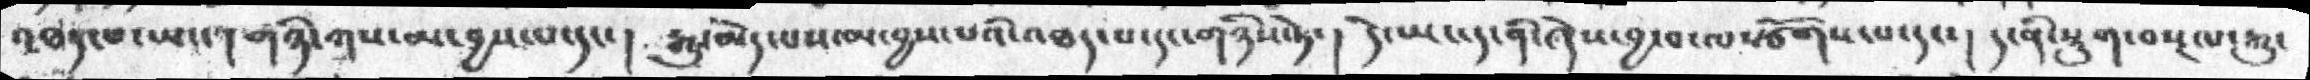འཐད་པ་ཡང་། གཉི་ཀས་མ་བྱས་པ་དང་། རྒྱུ་མེད་པས་མ་བྱས་པའི་འཏད་པ་དང་གཉིས་ཏེ་། དེ་ཡང་ད་ནི་ཞེས་བྱ་བ་ལསྩོགས་པ་དང་། ད་ནི་སྡུག་བསྔལ་རྒྱུ་
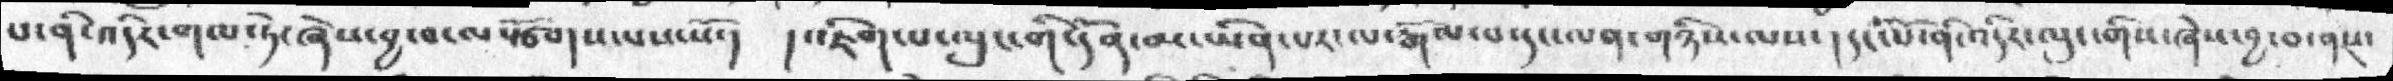པ་ནི་འདིར་གལ་ཏེ་ཞེས་བྱ་བ་ལསྩོགས་པས་སོ་།  །འཇིག་པ་ལུང་གི་དོན་མ་ཡིན་པར་ལ་རྒོལ་བ་དང་ལན་གཉིས་ལས་། དང་པོ་ནི་འདིར་ལུང་གིས་ཞེས་བྱ་བ་ནས་
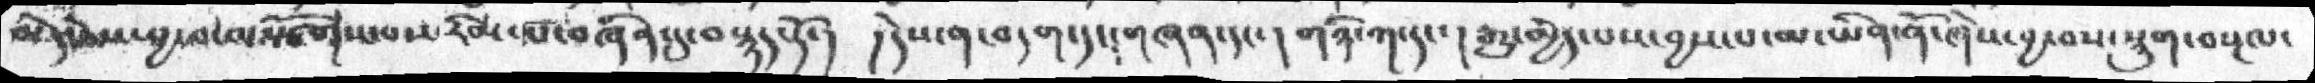མོད་ཅེས་བྱ་བ་ལསྩོགས་པ་རིམ་པ་བཞིན་དུ་བསྙད་དོ་།  ། དེས་ན་གདག་དང་གཞན་དང་།  གཉི་ཀ་དང་།   རྒྱུ་མྱེད་པས་བྱས་པ་མ་ཡིན་ནོ་ཞེས་བྱ་བས་སྡུག་བསྔལ་
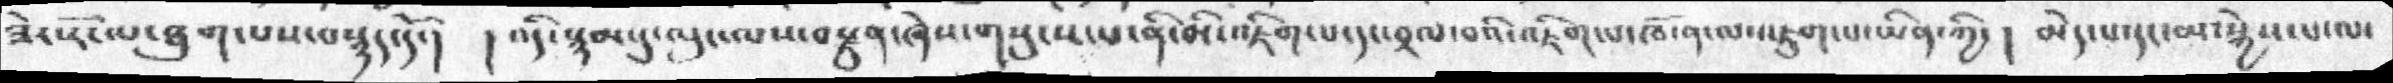ཟེར་རོ་ལ་ཐུག་པས་བསྙད་དོ་།  །འདི་སྙམ་དུ་ལུང་ལས་བརྫུས་ཞེས་གསུངས་པ་ནི་མི་འཇིག་པ་དང་བྲལ་བའི་འཇིག་པ་ཁོ་ན་ལ་འཇུག་པ་ཡིན་ཀྱི་། མེད་པ་དང་མ་སྐྱེས་པ་ལ་
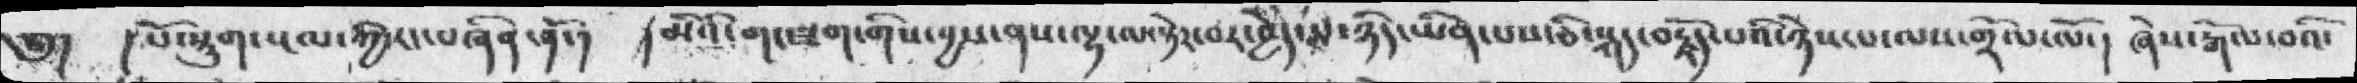༅།  །པོ་སྡུག་སྔལ་ཀྱི་རང་བཞིན་ནོ་།  །མིའི་གང་ཟག་གིས་བྱས་ནས་ལྷ་ལ་སྟེར་བར་བྱེད་པ་ཉིད་ཡིན་པས་ཅི་སྐད་བརྗོད་པའི་ཉེས་པ་ལས་གྲོལ་ལོ་། ཞེས་རྒོལ་བའི་
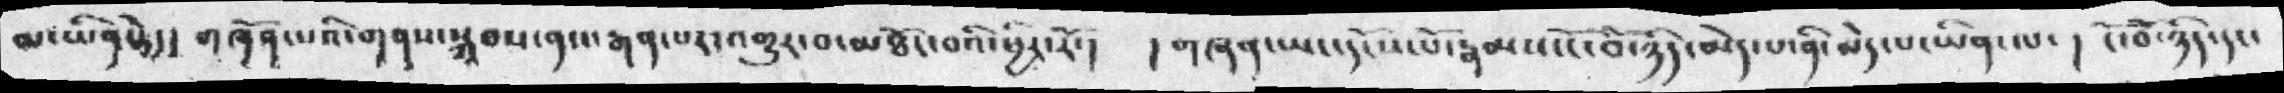མ་ཡིན་ཏེ་། གཞོན་པའི་གནས་སྐབས་ནས་རྒན་པར་འགྱུར་བ་མཐོང་བའི་ཕྱིར་རོ་།  །གཞན་ཡང་དངོས་པོ་རྣམས་ངོ་བོ་ཉིད་མེད་པ་ནི་མེད་པ་ཡིན་ལ་། ངོ་བོ་ཉིད་དང་
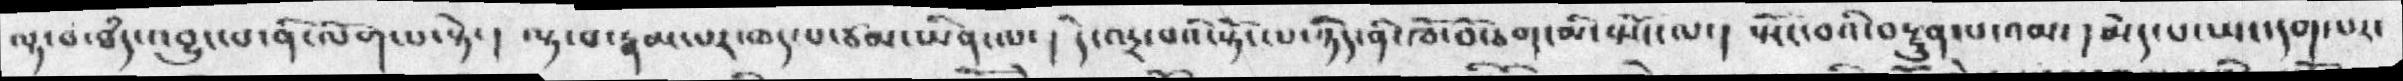ལྟ་བ་ཐཾད་འབྱུང་པ་ནི་ལོག་པ་སྟེ་།  ལྟ་བ་རྣམ་པར་ཆད་པ་ཙམ་ཡིན་ལ་།  དེ་འདྲ་བའི་སྟོང་པ་ཉིད་ནི་ཁོ་བོ་ཅག་མི་སྤོང་ལ་།  སྤོང་བའི་བརྫུན་པ་འམ་། མེད་པ་ཡང་དག་པར་
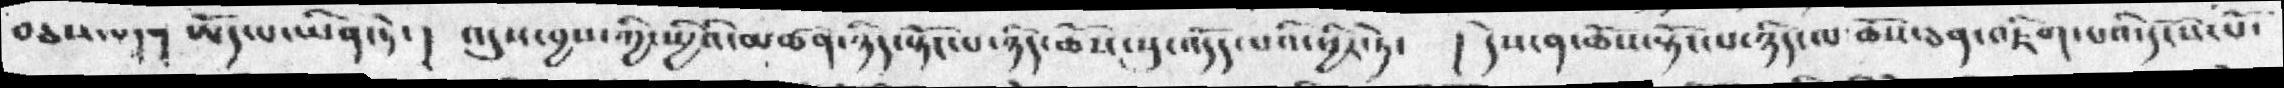བཅས་བདག་ཡོད་པ་ཡིན་ཏེ་།  འདུས་བྱས་ཀྱི་སྤྱིའི་མཚན་ཉིད་སྟོང་པ་ཉིད་ཆོས་སུ་འདོད་པའི་ཕྱིར་ཏེ་   ། དེས་ན་ཆོས་སྟོང་པ་ཉིད་ལ་ཆོས་ཅན་འཇིག་པའི་དངོས་པོ་
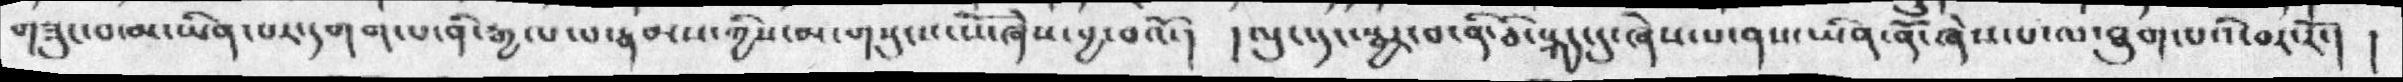གཟུང་པ་མ་ཡིན་པར་དགག་པ་ནི་རྒྱལ་པ་རྣམས་ཀྱིས་མ་གསུངས་སོ་ཞེས་བྱ་བའོ་།  ། ལུང་དང་སྦྱར་བ་ནི་ཅི་སྐད་དུ་ཞེས་པ་ནས་ཡིན་ནོ་ཞེས་པ་ལ་ཐུག་པའི་བར་རོ་།  །
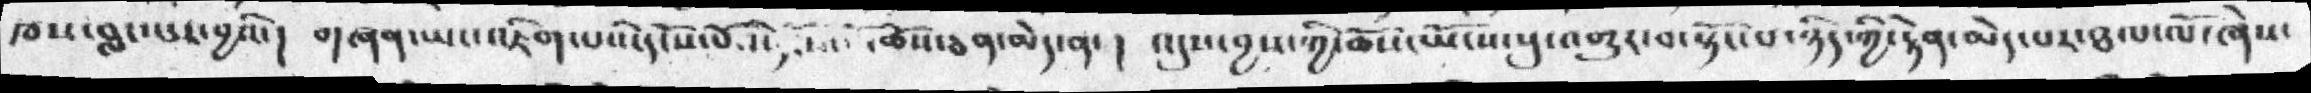ཁས་བླང་པར་བྱའོ་།   གཞན་ཡང་འཇིག་པའི་དངོས་པོ་སྤོས་ཆོས་ཅན་མེད་ན་།   འདུས་བྱས་ཀྱི་ཆོས་ཡོངས་སུ་འགྱུར་བ་སྟོང་པ་ཉིད་ཀྱི་རྟེན་མེད་པར་ཐལ་ལོ་ཞེས་
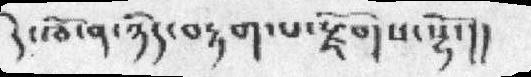དེ་ཁོ་ན་ཉིད་བརྟག་པ་སྫོགས་སྷོ་།།
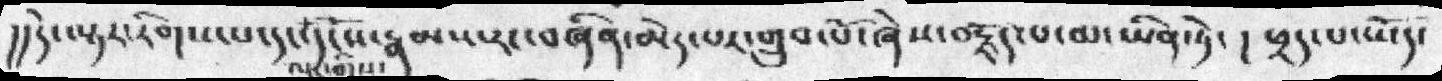།།དེ་སྟར་རིགས་པ་དང་དངོས་རྣམས་རང་བཞིན་མེད་པར་གྲུབ་པོ་ཞེས་བརྗོད་པ་མ་ཡིན་ཏེ་ །  ཕྲད་པ་ཡོད་
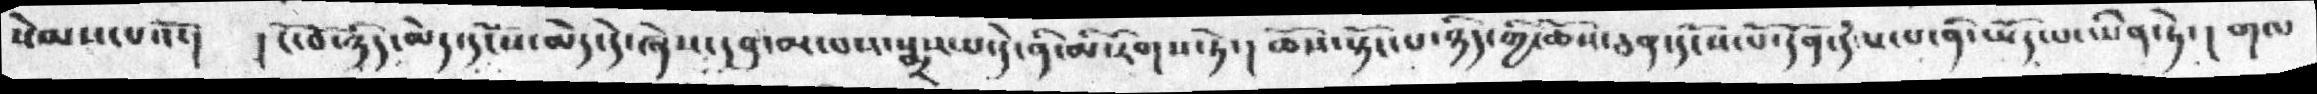སེམས་པའོ་།  ། ངོ་བོ་ཉིད་མེད་དངོས་མེད་དེ་ཞེས་དབུ་མ་པས་སྨྲས་པ་དེ་ནི་མི་རིགས་ཏེ་།  ཆོས་སྟོང་པ་ཉིད་ཀྱི་ཆོས་ཅན་དངོས་པོ་དོན་དེ་པ་པ་ནི་ཡོད་པ་ཡིན་ཏེ་།  གལ
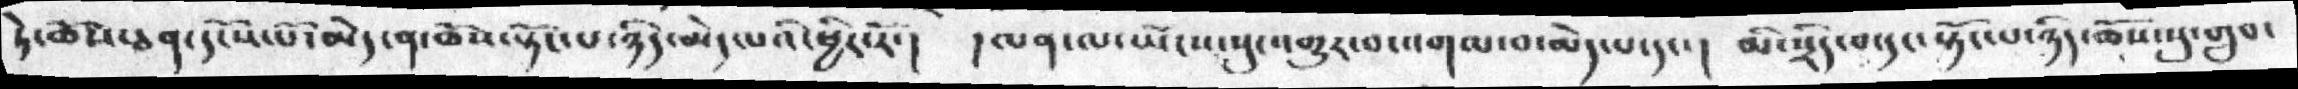ཏེ་ཆོས་ཅན་དངོས་པོ་མེད་ན་ཆོས་སྟོང་པ་ཉིད་མེད་པཔའི་ཕྱིར་རོ་།  །ལན་ལ་ཡོངས་སུ་འགྱུར་བ་འགལ་བ་མེད་པ་དང་།  མི་སྲིད་བ་དང་སྟོང་པ་ཉིད་ཆོས་སུ་གྲུབ་
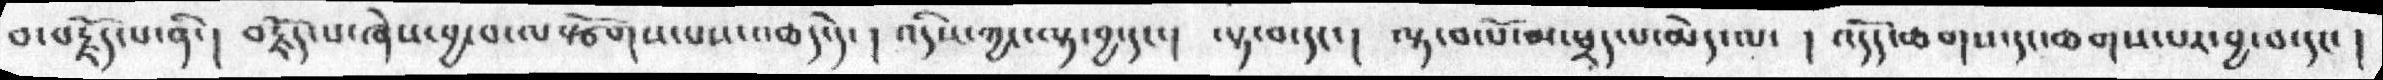བ་བརྗོད་པ་ནི་།  བརྗོད་པ་ཞེས་བྱ་བ་ལསྩོགས་པས་འཆད་དེ་། འདིས་ཀྱང་ལྷ་བྱ་དང་། ལྟ་བ་དང་། ལྟ་བ་པོ་མ་ཕྲད་པ་མེད་ལ་།  འདོད་ཆགས་དང་ཆགས་པར་བྱ་བ་དང་།
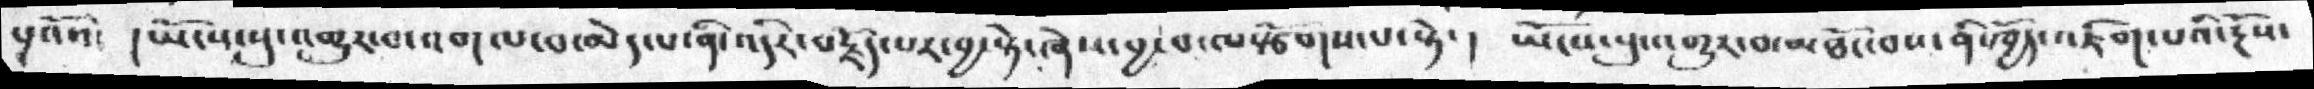སྔའོས་  ། ཡོངས་སུ་འགྱུར་བ་འགལ་བ་མེད་པ་ནི་འདིར་བརྗོད་པར་བྱ་སྟེ་ཞེས་བྱ་བ་ལསྩོགས་པ་སྟེ་།  ཡོངས་སུ་འགྱུར་བ་མཐོང་བས་ནི་ཁྱིད་འཇིག་པའི་རྔོས་
